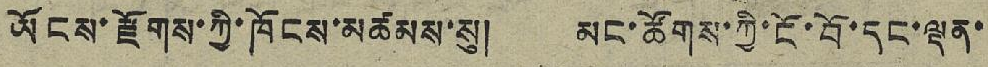ཡོངས་རྫོགས་ཀྱི་ཁོངས་མཚམས་སུ། མང་ཚོགས་ཀྱི་ངོ་བོ་དང་ལྡན་
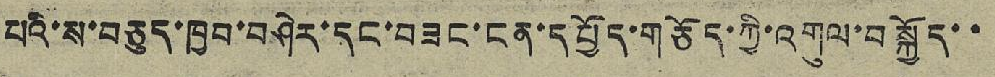པའི་ས་བཅུད་ཁྱབ་བཤེར་དང་བཟང་ངན་དཔྱོད་གཅོད་ཀྱི་འགུལ་བསྐྱོད་་
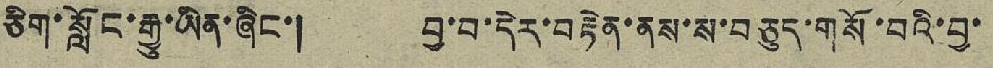ཅིག་སློང་རྒྱུ་ཡིན་ཞིང་། བྱ་བ་དེར་བརྟེན་ནས་ས་བཅུད་གསོ་བའི་བྱ་
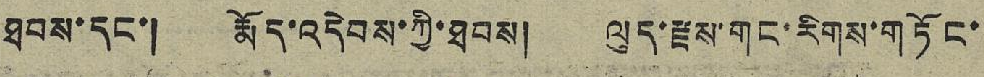ཐབས་དང་། རྨོད་འདེབས་ཀྱི་ཐབས། ལུད་རྫས་གང་རིགས་གཏོང་
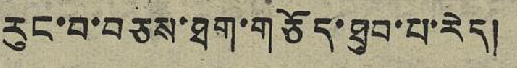རུང་བ་བཅས་ཐག་གཅོད་ཐུབ་པ་རེད།
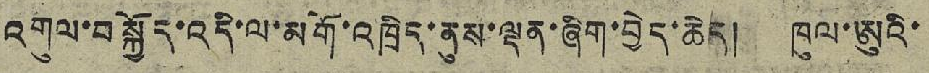འགུལ་བསྐྱོད་འདི་ལ་མགོ་འཁྲིད་ནུས་ལྡན་ཞིག་བྱེད་ཆེད། ཁུལ་ཨུའི་
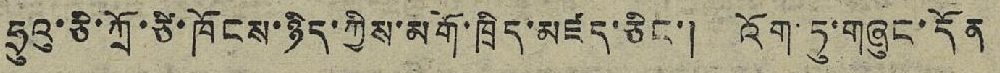ཧྲུའུ་ཅི་ཀྲོ་ཙི་ཁོངས་ཉིད་ཀྱིས་མགོ་ཁྲིད་མཛད་ཅིང་། འོག་ཏུ་གཞུང་དོན
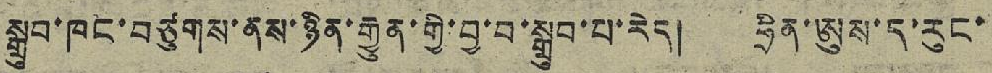སྒྲུབ་ཁང་བཙུགས་ནས་ཉིན་རྒྱུན་གྱི་བྱ་བ་སྒྲུབ་པ་རེད། ཧྲིན་ཨུས་ད་རུང་
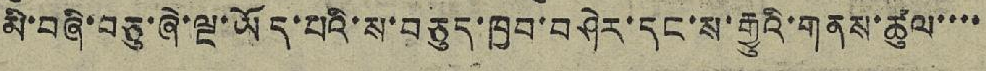མི་བཞི་བཅུ་ཞེ་ལྔ་ཡོད་པའི་ས་བཅུད་ཁྱབ་བཤེར་དང་ས་རྒྱུའི་གནས་ཚུལ་་་་
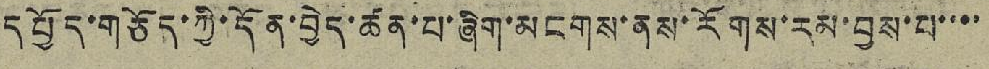དཔྱོད་གཅོད་ཀྱི་དོན་བྱེད་ཚན་པ་ཞིག་མངགས་ནས་རོགས་རམ་བྱས་པ་་་་
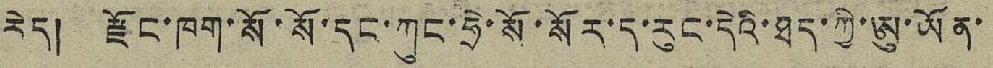རེད། རྫོང་ཁག་སོ་སོ་དང་ཀུང་ཧྲེ་སོ་སོར་ད་རུང་དེའི་ཐད་ཀྱི་ཨུ་ཡོན་
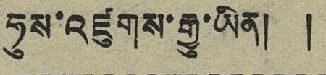ཧུས་འཛུགས་རྒྱུ་ཡིན། །
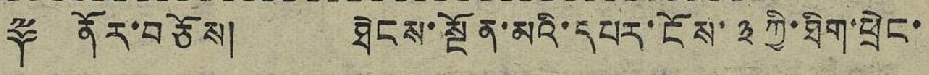༈ ནོར་བཅོས། ཐེངས་སྔོན་མའི་དཔར་ངོས་ ༣ ཀྱི་ཐིག་ཕྲེང་
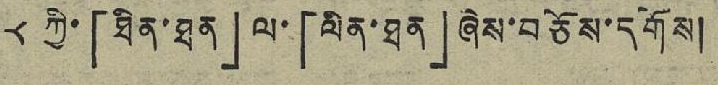༨ ཀྱི་「ཐིན་ཐན་」ལ་「ལིན་ཐན་」ཞེས་བཅོས་དགོས།
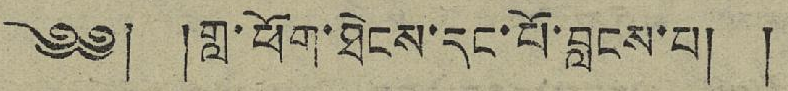༄༅། །གླ་ཕོག་ཐེངས་དང་པོ་བླངས་པ། །
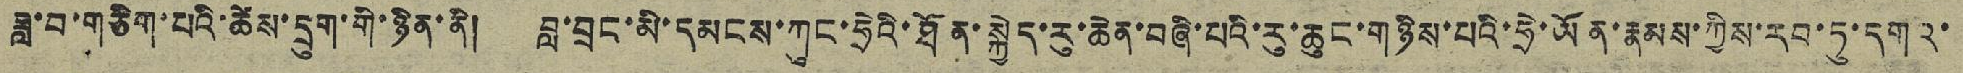ཟླ་བ་གཅིག་པའི་ཚེས་དྲུག་གི་ཉིན་ནི། བླ་བྲང་མི་དམངས་ཀུང་ཧྲེའི་ཐོན་སྐྱེད་རུ་ཆེན་བཞི་པའི་རུ་ཆུང་གཉིས་པའི་ཧྲེ་ཡོན་རྣམས་ཀྱིས་རབ་ཏུ་དགའ་
